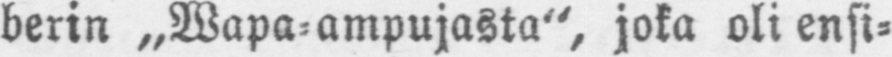berin „Wapa-ampujasta", joka oli ensi-
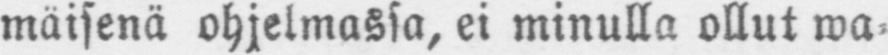mäisenä ohjelmassa, ei minulla ollut wa-
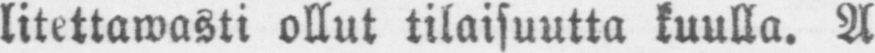litettawasti ollut tilaisuutta kuulla. A
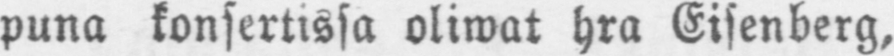puna konsertissa oliwat hra Eisenberg,
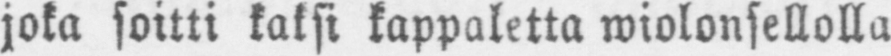joka soitti kaksi kappaletta wiolonsellolla
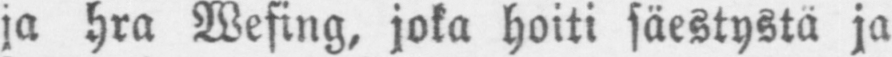ja hra Wesing, joka hoiti säestystä ja
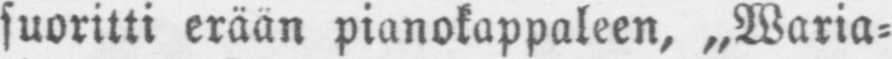suoritti erään pianokappaleen, „Waria-
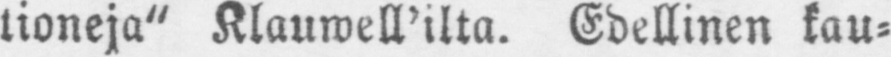tioneja" Klauwell'ilta. Edellinen kau-
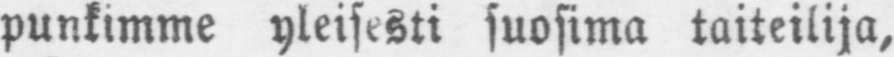punkimme yleisesti suosima taiteilija,
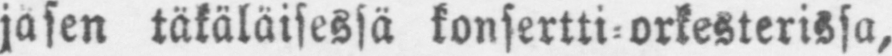jäsen täkäläisessä konsertti-orkesterissa,
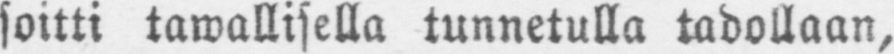soitti tawallisella tunnetulla kadollaan,
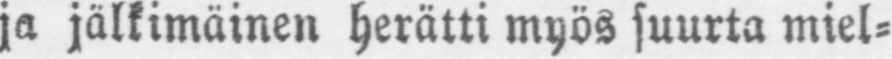ja jälkimäinen herätti myös suurta miel-
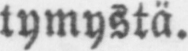tymystä.
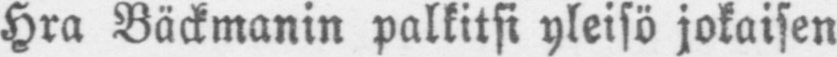Hra Bäckmanin palkitsi yleisö jokaisen
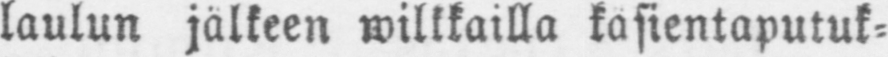laulun jälkeen wilkkailla käsientaputuk-
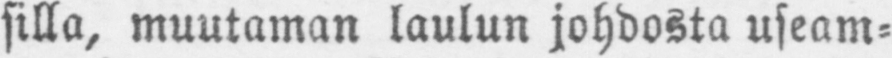silla, muutaman laulun johdosta useam-
